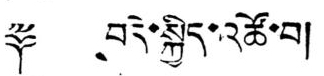༈ བདེ་སྐྱིད་འཚོ་བ།
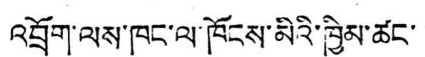འབྲོག་ལས་ཁང་ལ་ཁོངས་མིའི་ཁྱིམ་ཚང་་
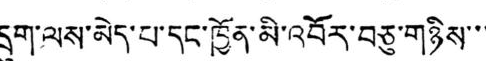དྲུག་ལས་མེད་པ་དང་ཁྱོན་མི་འབོར་བཅུ་གཉིས་་་
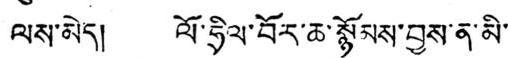ལས་མེད། ལོ་ཧྲིལ་བོར་ཆ་སྙོམས་བྱས་ན་མི་
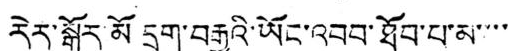རེར་སྒོར་མོ དྲུག་བརྒྱའི་ཡོང་འབབ་ཐོབ་པ་མ་་་་
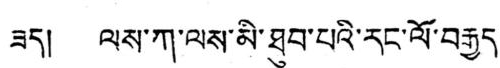ཟད། ལས་ཀ་ལས་མི་ཐུབ་པའི་རང་ལོ་བརྒྱད་
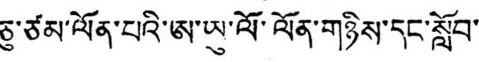ཅུ་ཙམ་ལོན་པའི་ཨ་ཡུ་ལོ་ལོན་གཉིས་དང་སློབ་་
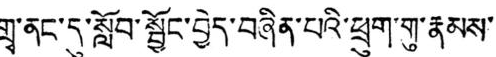གྲྭ་ནང་དུ་སློབ་སྦྱོང་བྱེད་བཞིན་པའི་ཕྲུག་གུ་རྣམས་
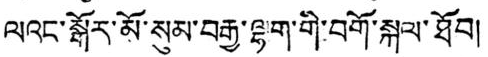ལའང་སྒོར་མོ་སུམ་བརྒྱ་ལྷག་གི་བགོ་སྐལ་ཐོབ།
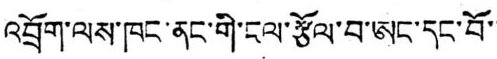འབྲོག་ལས་ཁང་ནང་གི་ངལ་རྩོལ་བ་ཨང་དང་བོ་་
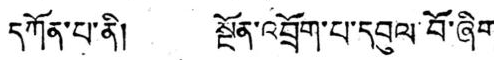དཀོན་པ་ནི། སྔོན་འབྲོག་པ་དབུལ་བོ་ཞིག་
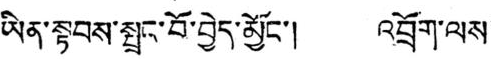ཡིན་སྟབས་སྤྲང་བོ་བྱེད་མོང་། འབྲོག་ལས་
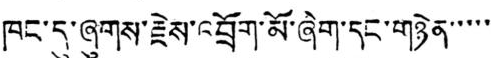ཁང་དུ་ཞུགས་རྗེས་འབྲོག་མོ་ཞིག་དང་གཉེན་་་་་་
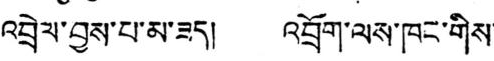འབྲེལ་བྱས་པ་མ་ཟད། འབྲོག་ལས་ཁང་གིས་
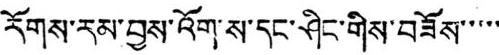རོགས་རམ་བྱས་འོག་ས་དང་ཤིང་གིས་བཟོས་་་་་
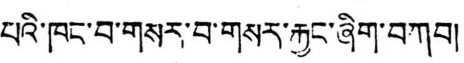པའི་ཁང་བ་གསར་བ་གསར་རྐྱང་ཞིག་བཀབ།
